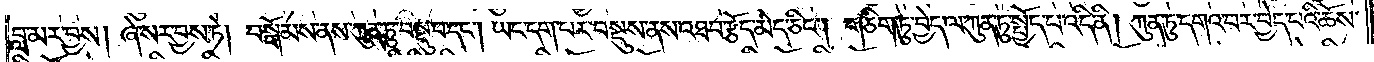བླ་མར་བྱས། ཞེ་སར་བྱས་ཏེ། བསྒོམས་ནས་ཀུན་ཏུ་བསྡུ་བ་དང༌། ཡང་དག་པར་བསྡུས་ནས་འཐབ་རྩོད་མེད་ཅིང༌། གཅིག་ཏུ་བྱེད་ལ་ཀུན་ཏུ་སྤྱོད་པ་འདི་ནི། ཀུན་ཏུ་དགའ་བར་བྱེད་པའི་ཆོས་
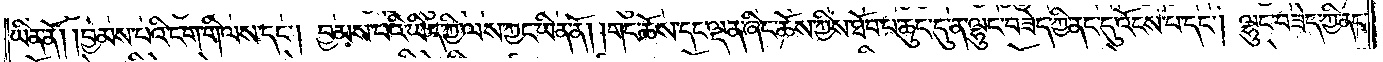ཡིན་ནོ། །བྱམས་པའི་ངག་གི་ལས་དང༌། བྱམས་པའི་ཡིད་ཀྱི་ལས་ཀྱང་ཡིན་ནོ། །གང་ཆོས་དང་ལྡན་ཞིང་ཆོས་ཀྱིས་ཐོབ་པ་ཆུང་དུ་ན་ལྷུང་བཟེད་ཀྱི་ནང་དུ་འོངས་པ་དང༌། ལྷུང་བཟེད་ཀྱི་ནང་
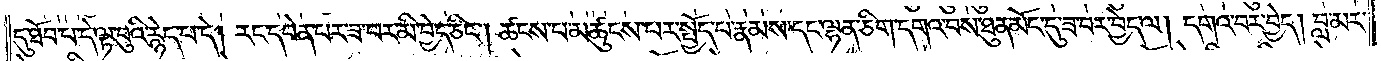དུ་ཐོབ་པ་དེ་ལྟ་བུའི་རྙེད་པ་དེ། རང་དབེན་པར་ཟ་བར་མི་བྱེད་ཅིང༌། ཚངས་པ་མཚུངས་པར་སྤྱོད་པ་རྣམས་དང་ལྷན་ཅིག་དགའ་བས་ཐུན་མོང་དུ་ཟ་བར་བྱེད་ལ། དགའ་བར་བྱེད། བླ་མར་
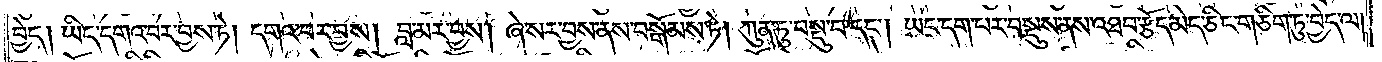བྱེད། ཡིད་དགའ་བར་བྱས་ཏེ། དགའ་བར་བྱས། བླ་མར་བྱས། ཞེ་སར་བྱས་ནས་བསྒོམས་ཏེ། ཀུན་ཏུ་བསྡུ་བ་དང༌། ཡང་དག་པར་བསྡུས་ནས་འཐབ་རྩོད་མེད་ཅིང་གཅིག་ཏུ་བྱེད་ལ།
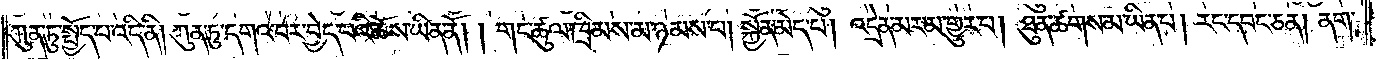ཀུན་ཏུ་སྤྱོད་པ་འདི་ནི། ཀུན་ཏུ་དགའ་བར་བྱེད་པའི་ཆོས་ཡིན་ནོ། །གང་ཚུལ་ཁྲིམས་མ་ཉམས་པ། སྐྱོན་མེད་པ། འདྲེན་མར་མ་གྱུར་བ། ཐུན་ཚགས་མ་ཡིན་པ། རང་དབང་ཅན། ནག་
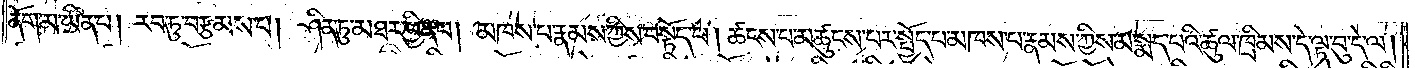ནོག་མ་ཡིན་པ། རབ་ཏུ་བརྩམས་པ། ཤིན་ཏུ་མཐར་ཕྱིན་པ། མཁས་པ་རྣམས་ཀྱིས་བསྟོད་པ། ཚངས་པ་མཚུངས་པར་སྤྱོད་པ་མཁས་པ་རྣམས་ཀྱིས་མ་སྨད་པའི་ཚུལ་ཁྲིམས་དེ་ལྟ་བུ་དེ་ལ།
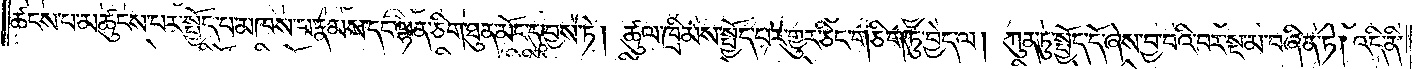ཚངས་པ་མཚུངས་པར་སྤྱོད་པ་མཁས་པ་རྣམས་དང་ལྷན་ཅིག་ཐུན་མོང་དུ་བྱས་ཏེ། ཚུལ་ཁྲིམས་སྤྱོད་པར་གྱུར་ཅིང་གཅིག་ཏུ་བྱེད་ལ། ཀུན་ཏུ་སྤྱོད་དོ་ཞེས་བྱ་བའི་བར་སྔ་མ་བཞིན་ཏེ། འདི་ནི་
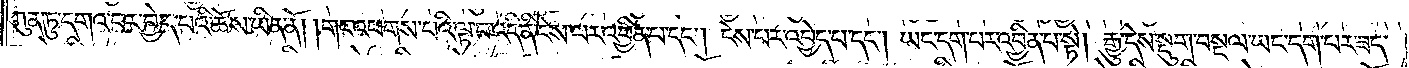ཀུན་ཏུ་དགའ་བར་བྱེད་པའི་ཆོས་ཡིན་ནོ། །གང་འཕགས་པའི་ལྟ་བ་འདི་ནི་ངེས་པར་འབྱིན་པ་དང༌། ངེས་པར་འབྱེད་པ་དང༌། ཡང་དག་པར་འབྱིན་པ་སྟེ། རྒྱུ་དེས་སྡུག་བསྔལ་ཡང་དག་པར་ཟད་
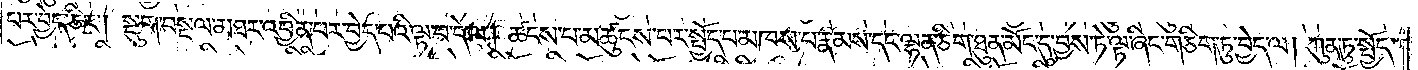པར་བྱེད་ཅིང༌། སྡུག་བསྔལ་མཐར་འབྱིན་པར་བྱེད་པའི་ལྟ་བ་དེ་ལ། ཚངས་པ་མཚུངས་པར་སྤྱོད་པ་མཁས་པ་རྣམས་དང་ལྷན་ཅིག་ཐུན་མོང་དུ་བྱས་ཏེ་ལྟ་ཞིང་གཅིག་ཏུ་བྱེད་ལ། ཀུན་ཏུ་སྤྱོད་
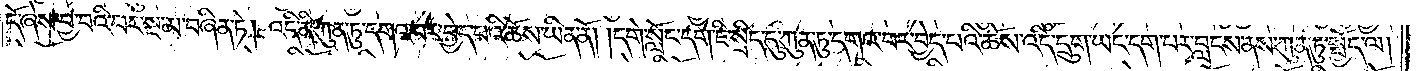དོ་ཞེས་བྱ་བའི་བར་སྔ་མ་བཞིན་ཏེ། འདི་ནི་ཀུན་ཏུ་དགའ་བར་བྱེད་པའི་ཆོས་ཡིན་ནོ། །དགེ་སློང་དག་ཇི་སྲིད་དུ་ཀུན་ཏུ་དགའ་བར་བྱེད་པའི་ཆོས་འདི་དྲུག་ཡང་དག་པར་བླངས་ནས་ཀུན་ཏུ་སྤྱོད་ལ།
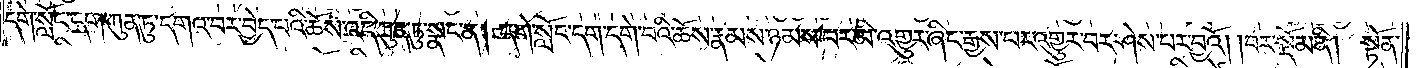དགེ་སློང་དག་ཀུན་ཏུ་དགའ་བར་བྱེད་པའི་ཆོས་འདི་ཀུན་ཏུ་སྣང་ན། དགེ་སློང་དག་དགེ་བའི་ཆོས་རྣམས་ཉམས་པར་མི་འགྱུར་ཞིང་རྒྱས་པར་འགྱུར་བར་ཤེས་པར་བྱའོ།    །བར་སྡོམ་ནི། སྟོན་
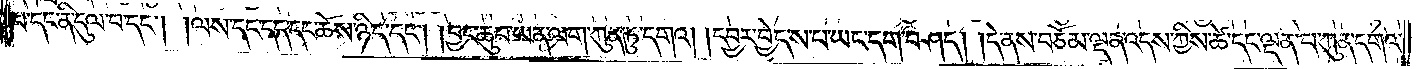པ་དང་ནི་དུལ་བ་དང༌། །ལས་དང་དད་དང་ཆོས་ཉིད་དང༌། །བྱང་ཆུབ་ཡན་ལག་ཀུན་ཏུ་དགའ། །དབྱར་བྱེད་ས་པ་ཡང་དག་བཤད། །དེ་ནས་བཅོམ་ལྡན་འདས་ཀྱིས་ཚེ་དང་ལྡན་པ་ཀུན་དགའ་
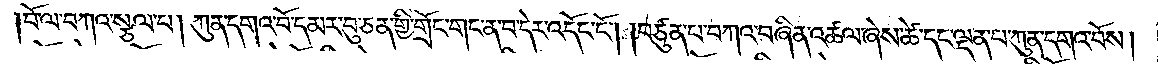བོ་ལ་བཀའ་སྩལ་པ། ཀུན་དགའ་བོ་དམར་བུ་ཅན་གྱི་གྲོང་གང་ན་བདེར་འདོང་ངོ༌། །བཙུན་པ་བཀའ་བཞིན་འཚལ་ཞེས་ཚེ་དང་ལྡན་པ་ཀུན་དགའ་བོས།
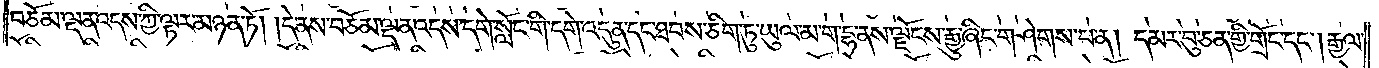བཅོམ་ལྡན་འདས་ཀྱི་ལྟར་མཉན་ཏོ། །དེ་ནས་བཅོམ་ལྡན་འདས་དགེ་སློང་གི་དགེ་འདུན་དང་ཐབས་ཅིག་ཏུ་ཡུལ་མ་ག་དྷ་ནས་ལྗོངས་རྒྱུ་ཞིང་གཤེགས་པ་ན། དམར་བུ་ཅན་གྱི་གྲོང་དང༌། རྒྱལ་
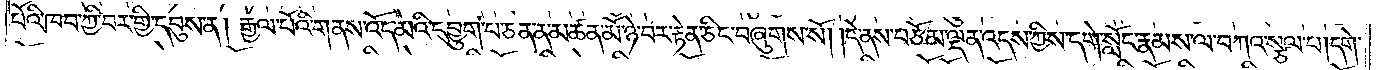པོའི་ཁབ་ཀྱི་བར་གྱི་དབུས་ན། རྒྱལ་པོའི་གནས་འོད་མའི་དབྱུག་པ་ཅན་ན་མཚན་མོ་ཉེ་བར་རྟེན་ཅིང་བཞུགས་སོ། །དེ་ནས་བཅོམ་ལྡན་འདས་ཀྱིས་དགེ་སློང་རྣམས་ལ་བཀའ་སྩལ་པ། དགེ་
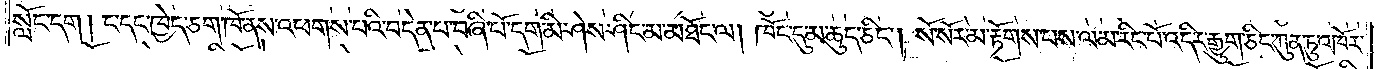སློང་དག། ང་དང་ཁྱེད་ཅག་ཁོ་ནས་འཕགས་པའི་བདེན་པ་བཞི་པོ་དག་མི་ཤེས་ཤིང་མ་མཐོང་ལ། ཁོང་དུ་མ་ཆུད་ཅིང༌། སོ་སོར་མ་རྟོགས་པས་ལམ་རིང་པོ་འདིར་རྒྱུག་ཅིང་ཀུན་ཏུ་འཁོར་
